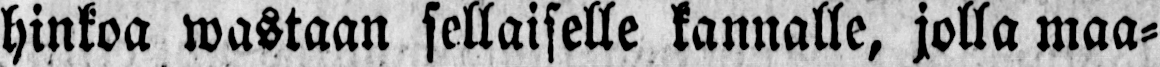hinkoa wastaan sellaiselle kannalle, jolla maa-
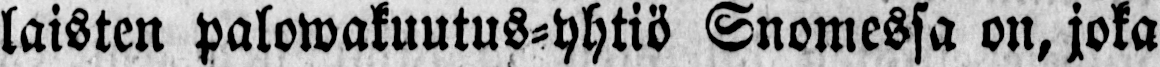laisten palowakuutus-yhtiö Snomessa on, joka
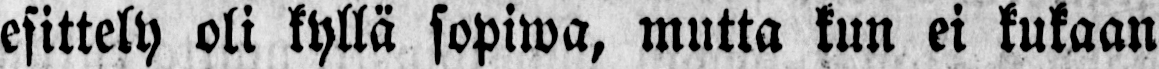esittely oli kyllä sopiwa, mutta kun ei kukaan
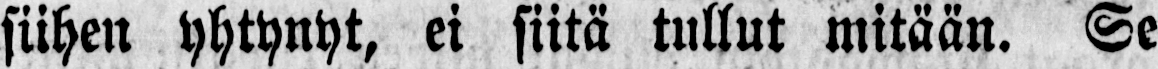siihen yhtynyt, ei siitä tullut mitään. Se
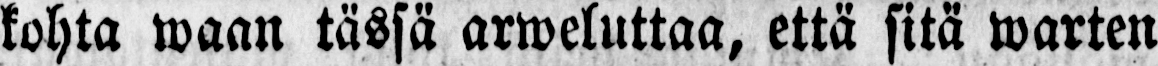kohta waan tässä arweluttaa, että sitä warten
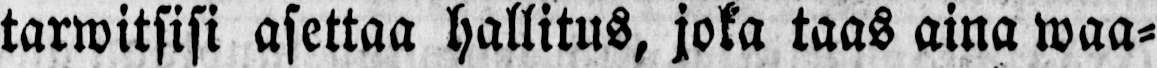tarwitsisi asettaa hallitus, joka taas aina waa-
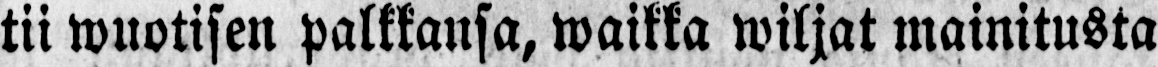tii wuotisen palkkansa, waikka wiljat mainitusta
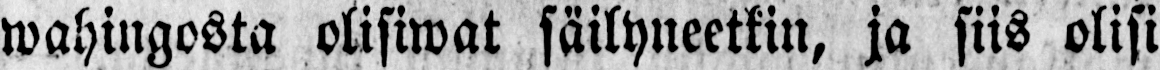wahingosta olisiwat säilyneetkin, ja siis olisi
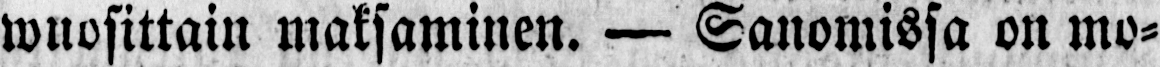wuosittain maksaminen. — Sanomissa on mo-
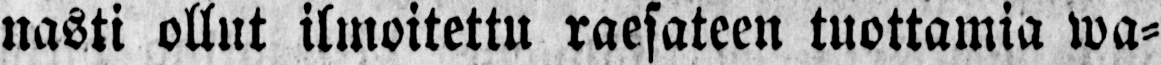nasti ollut ilmoitettu raesateen tuottamia wa-
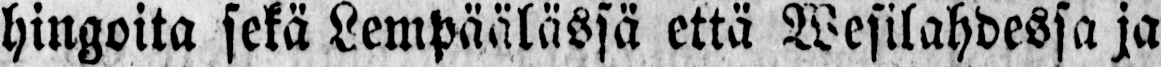hingoita sekä Lempäälässä että Wesilahdessa ja
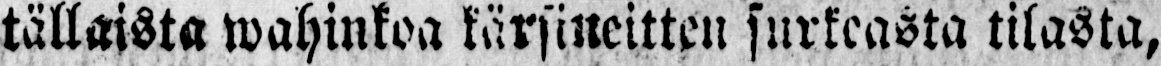tällaista wahinkoa kärsineitten surkeasta tilasta,
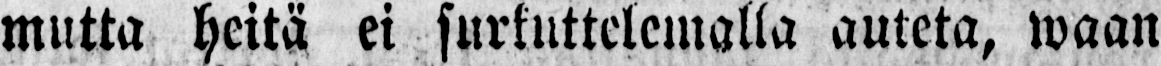mutta heitä ei surkuttelemalla auteta, waan
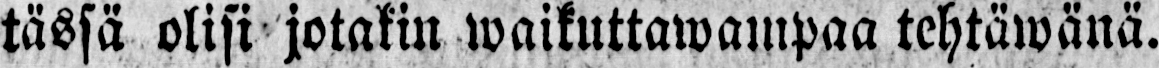tässä olisi jotakin waikuttawampaa tehtäwänä.
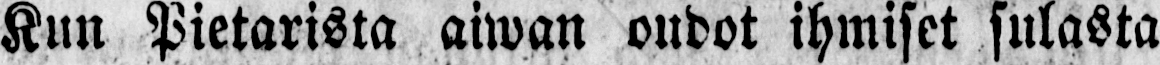Kun Pietarista aiwän oudot ihmiset sulasta
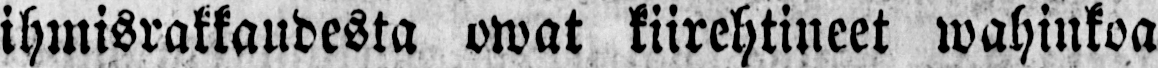ihmisrakkaudesta owat kiirehtineet wahinkoa
